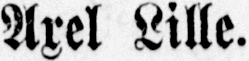Axel Lille.
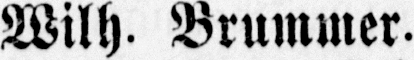Wilh. Brummer.
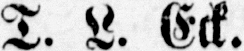T. L. Eck.
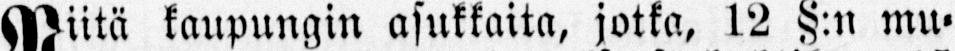Niitä kaupungin asukkaita, jotka, 12 §:n mu-
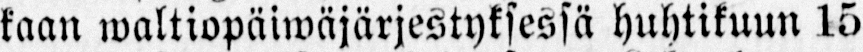kaan waltiopäiwäjärjestyksessä huhtikuun 15
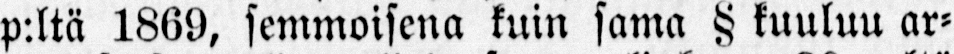p:ltä 1869, semmoisena kuin sama kuuluu ar-
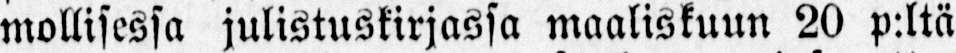mollisessa julistuskirjassa maaliskuun 20 p:ltä
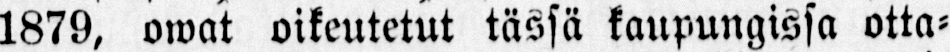1879, owat oikeutetut tässä kaupungissa otta-
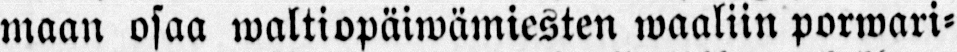maan osaa waltiopäiwämiesten waaliin porwari-
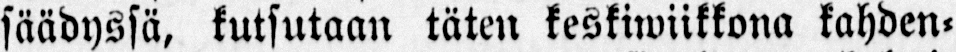säädyssä, kutsutaan täten keskiwiikkona kahden-
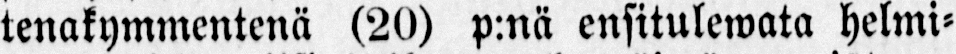tenakymmentenä (20) p.nä ensitulewata helmi-
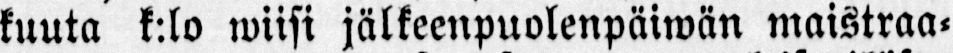kuuta k.lo wiisi jälkeenpuolenpäiwän maistraa-
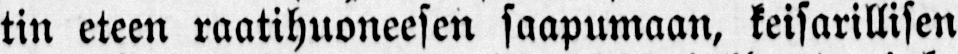tin eteen raatihuoneesen saapumaan, keisarillisen
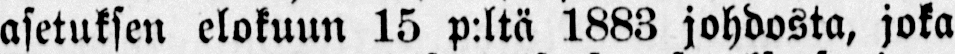asetuksen elokuun 15 p:ltä 1883 johdosta, joka
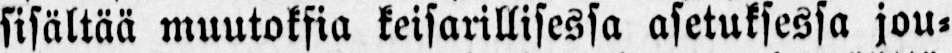sisältää muutoksia keisarillisessa asetuksessa jou-
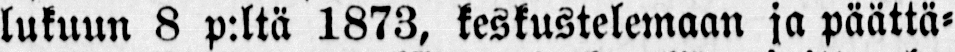lukuun 8 p:ltä 1873, keskustelemaan ja päättä-
